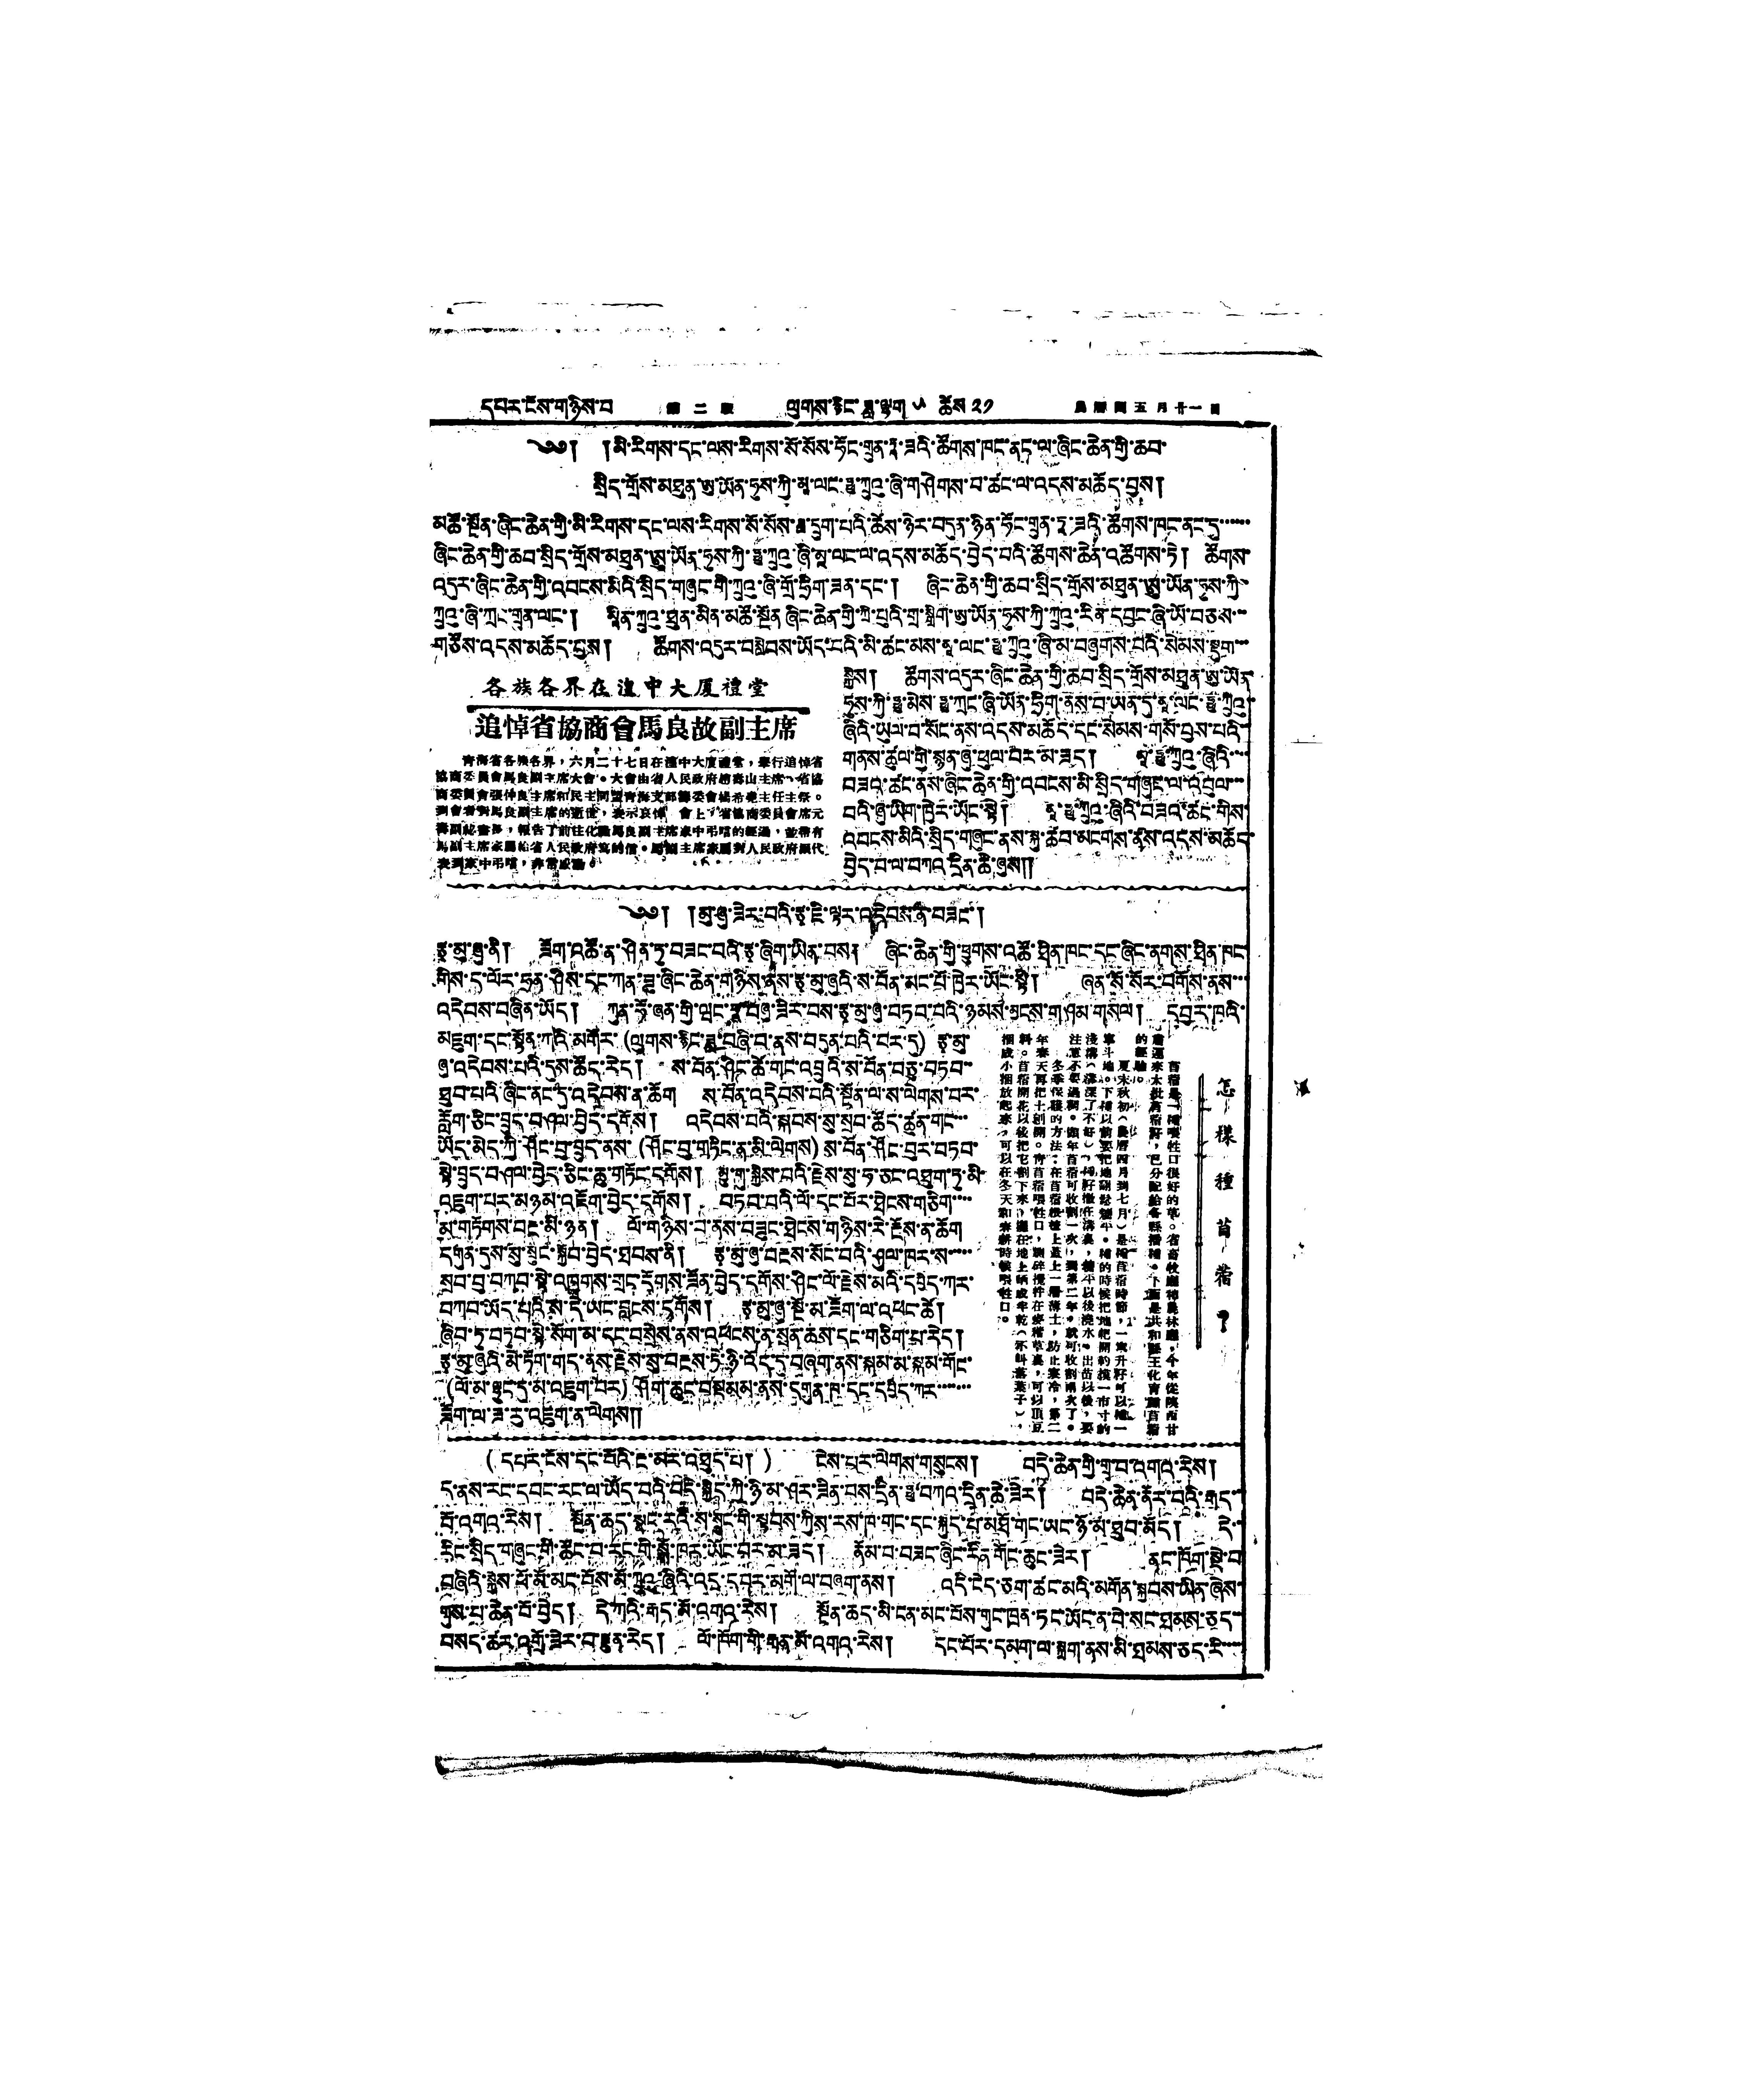དཔར་ངོས་གཉིས་པ 第二版 ལུགས་རྙིང་ཟླ་ལྷག ༥ ཚེས ༢༡ 農曆閏五月廿一日
༄༅། །མི་རིགས་དང་ལས་རིགས་སོ་སོས་ཧོང་གྲུན་ཏཱ་ཟའི་ཚོགས་ཁང་ནང་ལ་ཞིང་ཆེན་གྱི་ཆབ་
སྲིད་གྲོས་མཐུན་ཨུ་ཡོན་ཧུས་ཀྱི་མཱ་ལང་ཧྥུ་ཀྲུའུ་ཞི་གཤེགས་པ་ཚང་ལ་འདས་མཆོད་བྱས།
མཚོ་སྔོན་ཞིང་ཆེན་གྱི་མི་རིགས་དང་ལས་རིགས་སོ་སོས་ཟླ་དྲུག་པའི་ཆོས་ཉེར་བདུན་ཉིན་ཧོང་གྲུན་ཏྰ་ཟའི་ཚོགས་ཁང་ནང་དུ་་་་་་་
ཞིང་ཆེན་གྱི་ཆབ་སྲིད་གྲོས་མཐུན་ཨུ་ཡོན་ཧུས་ཀྱི་ཧྥུ་ཀྲུའུ་ཞི་མཱ་ལང་ལ་འདས་མཆོད་བྱེད་པའི་ཚོགས་ཆེན་འཚོགས་ཏེ། ཚོགས་
འདུར་ཞིང་ཆེན་གྱི་འབངས་མིའི་སྲིད་གཞུང་གི་ཀྲུའུ་ཞི་གྲོ་ཧྲིག་ཟན་དང་། ཞིང་ཆེན་གྱི་ཆབ་སྲིད་གྲོས་མཐུན་ཨུ་ཡོན་ཧུས་ཀྱི་
ཀྲུའུ་ཞི་ཀྲང་གྲུན་ལང་། མཱིན་ཀྲུའུ་ཐུན་མིན་མཚོ་སྔོན ཞིང་ཆེན་གྱི་ཀྲི་པུའི་གྲ་སྒྲིག་ཨུ་ཡོན་ཧུས་ཀྱི་ཀྲུའུ་རིན་དབྱང་ཞི་ཡོ་བཅས་་་
གཙོས་འདས་མཆོད་བྱས། ཚོགས་འདུར་བསླེབས་ཡོད་པའི་མི་ཚང་མས་མཱ་ལང་ཧྥུ་ཀྲུའུ་ཞི་མ་བཞུགས་པའི་སེམས་སྡུག་་་
སྐྱེས། ཚོགས་འདུར་ཞིང་ཆེན་གྱི་ཆབ་སྲིད་གོས་མཐུན་ཨུ་ཡོན་
ཧས་ཀྱི་ཧྥུ་མེས་ཧྥུ་ཀྲང་ཞི་ཡོན་ཧྲིག་ནས་བ་ཡན་དུ་མཱ་ལང་ཧྥུ་ཀྲུའུ་
ཞིའི་ཡུལ་བ་སོང་ནས་འདས་མཆོད་དང་སེམས་གསོ་བྱས་པའི་
གནས་ཚུལ་གྱི་སྙན་ཞུ་ཕུལ་བར་མ་ཟད། མཱ་ཧྥུ་ཀྲུའུ་ཞིའི་་་་
བཟའ་ཚང་ནས་ཞིང་ཆེན་གྱི་འབངས་མི་སྲིད་གཞུང་ལ་འབུལ་་་
བའི་ཞུ་ཡིག་ཁྱེར་ཡོང་སྟེ། མཱ་ཧྥུ་ཀྲུའུ་ཞིའི་བཟའ་ཚང་གིས་
འབངས་མིའི་སྲིད་གཞུང་ནས་སྐུ་ཚབ་མངགས་ནས་འདས་མཆོད་
བྱེད་པ་ལ་བཀའ་དྲིན་ཆེ་ཞུས༎
各族各界在湟中大廈禮堂
追悼省協商會馬良故副主席
靑海省各族各界，六月二十七日在湟中大廈禮堂，舉行追悼省
協商委員會馬良副主席大會。大會由省人民政府趙壽山主席，省協
商委員會張仲良主席和民主同蒙靑海支部籌委會楊希堯主任主祭。
到會者對馬良副主席的逝世，表示哀悼。會上，省協商委員會席元
壽副祕書長，報告了前往化隆馬良副主席家中弔唁的經過，並帶有
馬副主席家屬給省人民政府寫的信。馬副主席家屬對人民政府派代
表到家中弔唁，非常感動。
༄༅། །མུ་ཞུ་ཟེར་བའི་རྩྭ་ཇི་ལྟར་འདེབས་ན་བཟང་།
རྩྭ་མུ་ཞུ་ནི། ཟོག་འཚོ་ན་ཤིན་དུ་བཟང་བའི་རྩྭ་ཞིག་ཡིན་པས། ཞིང་ཆེན་གྱི་ཕྱུགས་འཚོ་ཐིན་ཁང་དང་ཞིང་ནགས་ཐིན་ཁང་
གིས་ད་ལོར་ཧྲན་ཤིས་དང་ཀན་ཟུ་ཞིང་ཆེན་གཉིས་ནས་རྩྭ་མུ་ཞུའི་ས་བོན་མང་པོ་ཁྱེར་ཡོང་སྟེ། ཞན་སོ་སོར་བགོས་ནས་་་
འདེབས་བཞིན་ཡོད། ཀུན་ཧོ་ཞན་གྱི་ཝང་ཧཱ་བཞུ་ཟེར་བས་རྩྭ་མུ་ཞུ་བཏབ་བའི་ཉམས་མྱངས་གཤམ་གསལ། དབྱར་ཁའི་
མཇུག་དང་སྟོན་ཀའི་མགོར་(ལུགས་རྙིང་ཟླ་བཞི་བ་ནས་བདུན་པའི་བར་དུ) རྩྭ་མུ་
ཞུ་འདེབས་པའི་དུས་ཚོད་རེད། ས་བོན་ཤིང་ཚོ་གང་འབྲུའི་ས་བོན་བཅུ་བཏབ་་
ཐུབ་པའི་ཞིང་ནང་དུ་འདེབས་ན་ཆོག ས་བོན་འདེབས་པའི་སྔོན་ལ་ས་ལེགས་པར་
རློག་ཅིང་བྲུད་བཤལ་བྱེད་དགོས། འདེབས་པའི་སྐབས་སུ་སྲབ་ཚོད་ཚུན་གང་་་
ཡོད་མེད་ཀྱི་ཤོང་བུ་བྲུད་ནས་(ཤོང་བུ་གཏིང་ན་མི་ལེགས) ས་བོན་ཤོང་བུར་བཏབ་
སྟེ་བྲུད་བཤལ་བྱེད་ཅིང་ཆུ་གཏོང་དགོས། མྱུ་གུ་སྐྱེས་བའི་རྗེས་སུ་ཧ་ཅང་འཐུག་ཏུ་མི་
འཇུག་པར་མཉམ་འཇོག་བྱེད་དགོས། བཏབ་བའི་ལོ་དང་པོར་ཐེངས་གཅིག་་་་
མ་གཏོགས་བརྔ་མི་ཉན། ལོ་གཉིས་པ་ནས་བཟུང་ཐེངས་གཉིས་རེ་རྔོས་ན་ཆོག
དགུན་དུས་སུ་སྲུང་སྐྱོབ་བྱེད་ཐབས་ནི། རྩྭ་མུ་ཞུ་བརྔས་སོང་བའི་ཤུལ་ཁར་ས་་་་་
སྲབ་བུ་བཀབ་སྟེ་འཁྲུགས་གྲང་དོགས་ཟོན་བྱེད་དགོས་ཤིང་ལོ་རྗེས་མའི་དཔྱིད་ཀར་
བཀབ་ཡོད་པའི་ས་དེ་ཡང་བླངས་དགོས། རྩྭ་མུ་ཞུ་སྔོ་མ་ཟོག་ལ་འཕང་ཚེ།
ཞིབ་ཏུ་བཏུབ་སྟེ་སོག་མ་དང་བསྲེས་ནས་འཕངས་ན་སྲན་ཆས་དང་གཅིག་པ་རེད།
རྩྭ་མུ་ཞུའི་མེ་ཏོག་གད་ནས་རྗེས་སུ་བརྔས་ཏེ་ཉི་འོད་དུ་བཞག་ནས་སྐམ་མ་སྐམ་གོང་
(ལོ་མ་ལྷུང་དུ་མ་འཇུག་པོར) ཤོག་ཆུང་བསྡམམ་ནས་དགུན་ཁ་དང་དཔྱིད་ཀར་་་་་་་་་
ཟོག་ལ་ཟ་རུ་འཇུག་ན་ལེགས།།
怎 樣 種 苜 蓿 ？
苜蓿是一種喂牲口很好的草。省畜牧廳和農林廳，今年從陝西甘
肅運來大批苜蓿籽，已分配給各縣播種。下面是共和縣王化育種苜蓿
的經驗。
夏末秋初（農曆四月到七月）是種苜蓿時節，一車升籽可以種一
車斗地。下種以前要把地翻鬆耱平。種的時候把地耙開約摸一市寸的
淺溝（溝深了不好），將籽撒在溝裏，耱平以後澆水。出苗以後，要
注意不要過稠。頭年苜蓿可收割一次，到第二年，就可收割兩次了。
冬季保護的方法：在苜蓿根楂上蓋上一層薄土，防止寒冷，第二
年春天再把土刨開。靑苜蓿喂牲口，鍘碎攪拌在麥稭草裏，可以頂豆
料。苜蓿開花以後把它割下來，攤在地上晒成半乾（不叫落葉子），
捆成小捆放起來，可以在冬天和春耕時候喂牲口。
( དཔར་ངོས་དང་པོའི་རྔ་མར་འཐུད་པ། ) ངེས་པར་ལེགས་གསུངས། བདེ་ཆེན་གྱི་གྲྭ་པ་འགའ་རེས།
ད་ནས་རང་དབང་རང་ལ་ཡོད་པའི་བདེ་སྐྱིད་ཀྱི་ཉི་མ་ཤར་ཟིན་པས་དྲིན་ཧྥུ་བཀའ་དྲིན་ཆེ་ཟེར། བདེ་ཆེན་ནོར་བའི་རྒད་་
པོ་འགའ་རེས། སྔོན་ཆད་སྣང་རའི་ས་སྲུང་གི་སྟབས་ཀྱིས་རས་ཁ་གང་དང་སྐུད་པ་མཐོ་གང་ཡང་ཉོ་མ་ཐུབ་མོད། དེ་་
རིང་སྲིད་གཞུང་གི་ཚོང་བ་རང་གི་སྒོ་ཁར་ཡོང་བར་མ་ཟད། རྣོམ་བ་བཟང་ཞིང་རིན་གོང་ཆུང་ཟེར། ནང་ཁོག་སྡེ་བ
བཞིའི་སྐྱེས་ཕོ་མོ་མང་པོས་མོ་ཀྲུའུ་ཞིའི་འདྲ་དཔར་མགོ་ལ་བཞག་ནས། འདི་ངེད་ཅག་ཚང་མའི་མགོན་སྐྱབས་ཡིན་ཞེས་
གུས་པ་ཆེན་པོ་བྱེད། དེ་ཀའི་རྒད་མོ་འགའ་རེས། སྔོན་ཆད་མི་ངན་མང་པོས་གུང་ཁྲན་ཏང་ཡོང་ན་བེ་སང་ཐམས་ཅད་་
བསད་ཚར་འགྲོ་ཟེར་པ་རྫུན་རེད། ལོ་ཁོག་གི་རྒན་མོ་འགའ་རེས། དང་པོར་དམག་ལ་སྐྲག་ནས་མི་ཐམས་ཅད་རི་་་་་་
